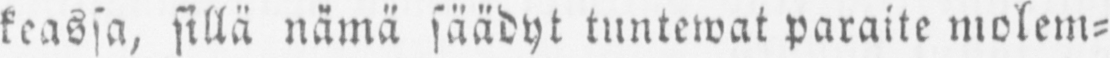keassa, sillä nämä säädyt tuntewat paraite molem-
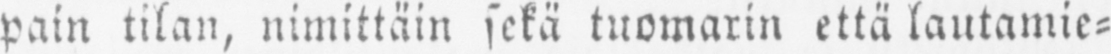pain tilan, nimittäin sekä tuomarin että lautamie-
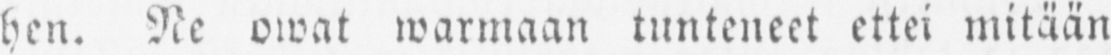hen. Ne owat warmaan tunteneet ettei mitään
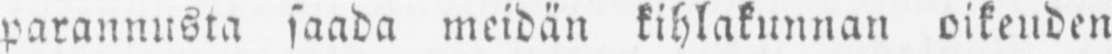parannusta saada meidän kihlakunnan oikeuden
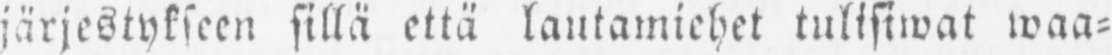järjestykseen sillä että lautamiehet tulisiwat waa-
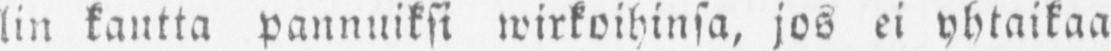lin kautta pannuiksi wirkoihinsa, jos ei yhtaikaa
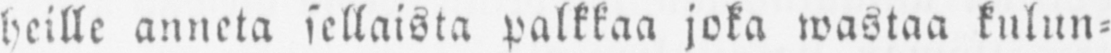heille anneta sellaista palkkaa joka wastaa kulun-
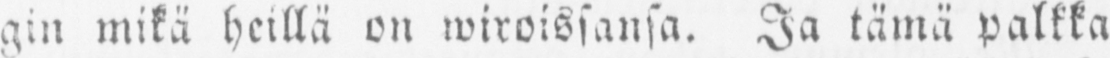gin mikä heillä on wiroissansa. Ja tämä palkka
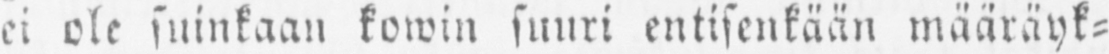ei ole suinkaan kowin suuri entisenkään määräyk-
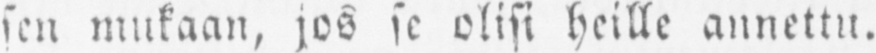sen mukaan, jos se olisi heille annettu.
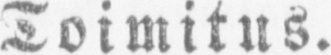Toimitus.
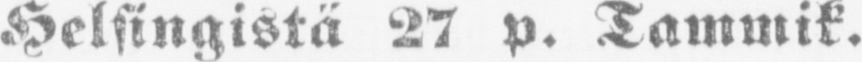Helsingistä 27 p. Tammik.
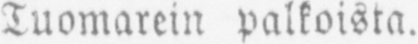Tuomarein palkoista.
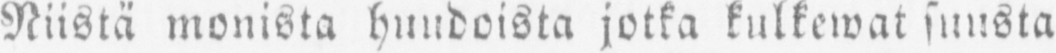Niistä monista huudoista jotka kulkewat suusta
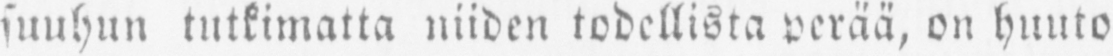suuhun tutkimatta niiden todellista perää, on huuto
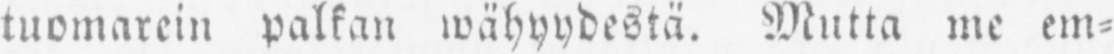tuomarein palkan wähyydestä. Mutta me em-
